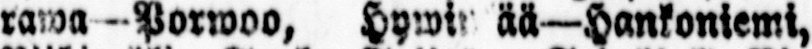rawa Porwoo, Hywin ää—Hankoniemi,
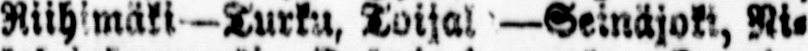Riihimäki -Turku, Toijal —Seinäjoki, Ni-
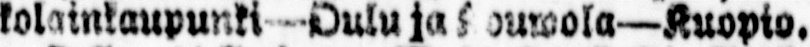kolainkaupunki Oulu ja Kouwola—Kuopio.
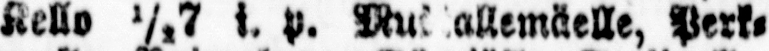Kello ½7 i. P. Wu allemäelle, Perk-
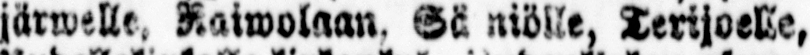järwelle, Raiwolaan. Sä niölle, Terijoelle,
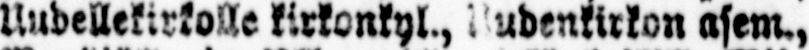Uudellekirkolle kirkonkyl., Udenkirkon asem.,
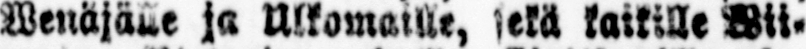Wenäjlle ja Ulkomaille, sekä kaikille Wii-
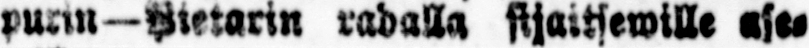purin—Pietarin radalla sijaitsewille ase-
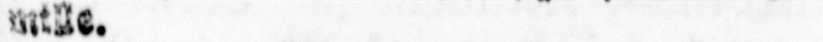mille.
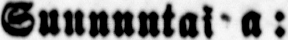Sunnuntaina:
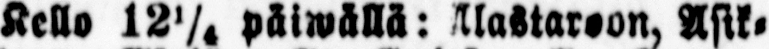Kello 12¼ päiwällä: Alastaroon, Asik-
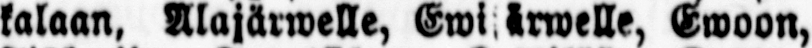kalaan, Alajärwelle, Ewijärwelle, Ewoon,
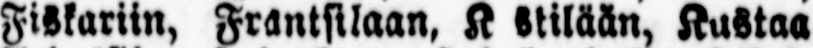Fiskariin, Frantsilaan, K stilään, Kustaa
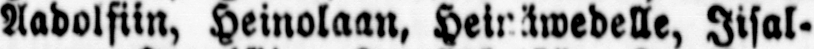Aadolfiin, Heinolaan, Heinwedelle Iisal-
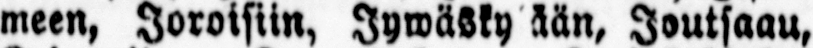meen, Joroisiin, Jywäsky ään, Joutsaau,
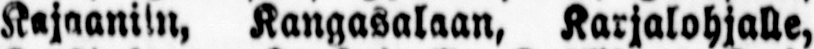Kajaaniln, Kangasalaan, Karjalohjalle,
